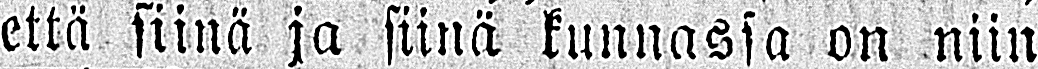että siinä ja siinä kunnassa on niin
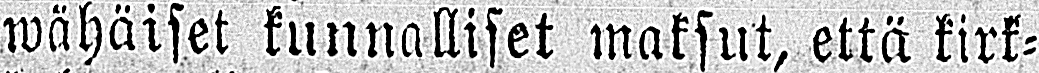wähäiset kunnalliset maksut, että kirk-
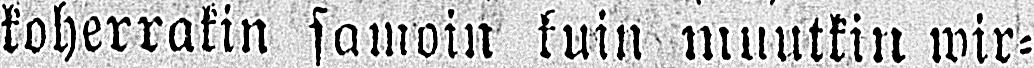koherrakin samoin kuin muutkin wir-
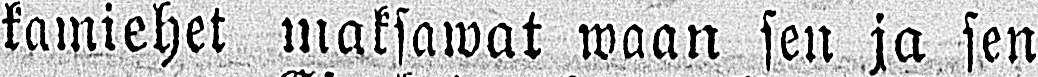kamiehet maksawat waan sen ja sen
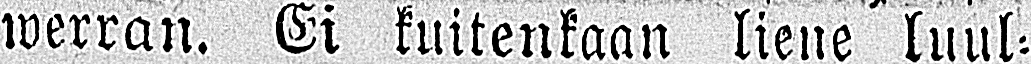werran. Ei kuitenkaan liene luul-
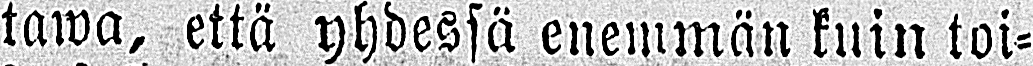tawa, että yhdessä enemmän kuin toi-
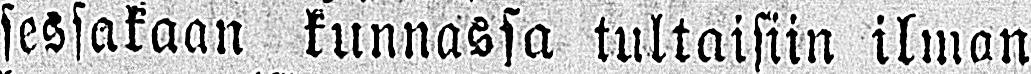sessakaan kunnassa tultaisiin ilman
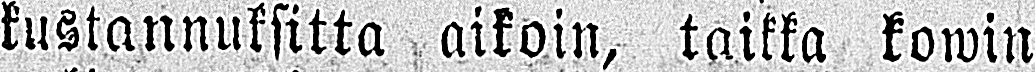kustannuksitta aikoin, taikka kowin
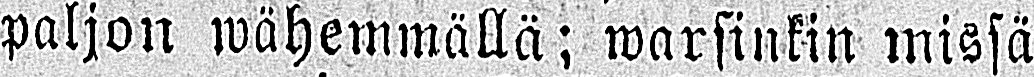paljon wähemmällä; warsinkin missä
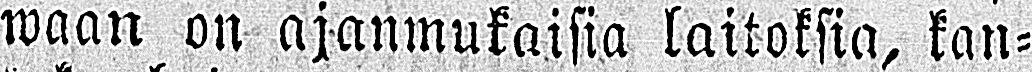waan on ajanmukaisia laitoksia, kan-
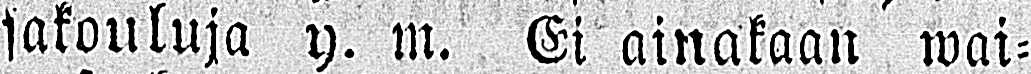sakouluja y. m. Ei ainakaan wai-
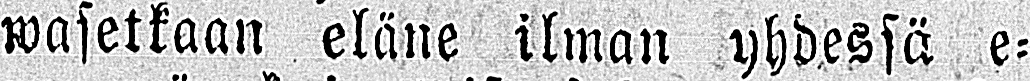wasetkaan eläne ilman yhdessä e-
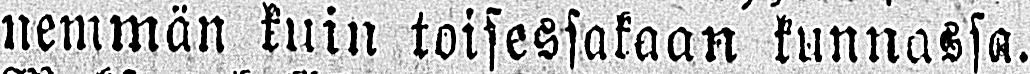nemmän kuin toisessakaan kunnassa.
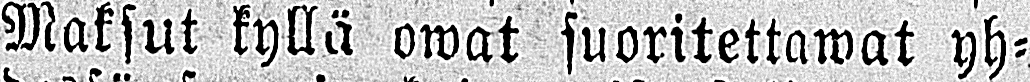Maksut kyllä owat suoritettawat yh-
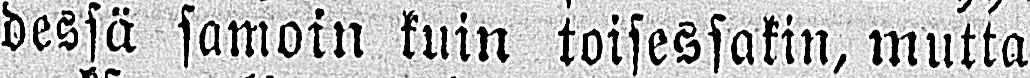dessä samoin kuin toisessakin, mutta
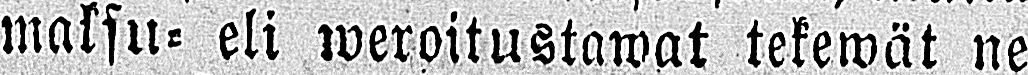maksu- eli weroitustawat tekewät ne
